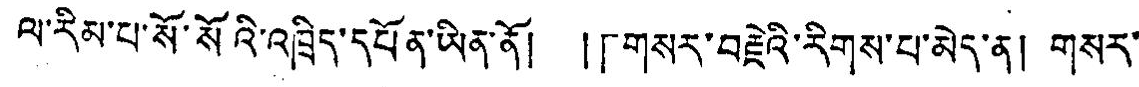ལ་རིམ་པ་སོ་སོའི་འཁྲིད་དཔོན་ཡིན་ནོ། །「གསར་བརྗེའི་རིགས་པ་མེད་ན། གསར་
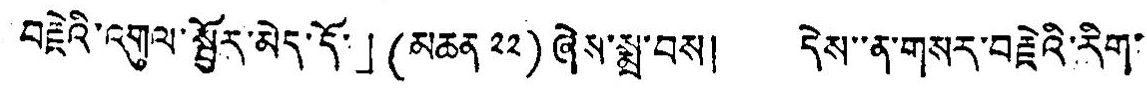བརྗེའི་འགུལ་སྦྱོར་མེད་དོ་」(མཆན ༢༢) ཞེས་སྨྲ་བས། དེས་་ན་གསར་བརྗེའི་རིག་
